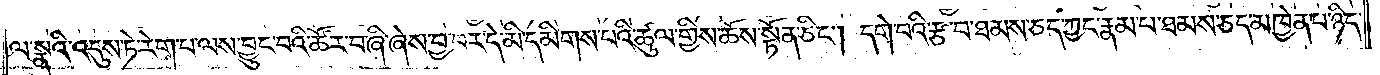ལ་སྣའི་འདུས་ཏེ་རེག་པ་ལས་བྱུང་བའི་ཚོར་བ་ཞི་ཞེས་བྱ་བར་དེ་མི་དམིགས་པའི་ཚུལ་གྱིས་ཆོས་སྟོན་ཅིང༌། དགེ་བའི་རྩ་བ་ཐམས་ཅད་ཀྱང་རྣམ་པ་ཐམས་ཅད་མཁྱེན་པ་ཉིད་
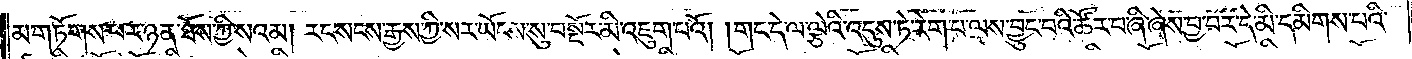མ་གཏོགས་པར་ཉན་ཐོས་ཀྱི་སའམ། རང་སངས་རྒྱས་ཀྱི་སར་ཡོངས་སུ་བསྔོར་མི་འཇུག་པའོ། །གང་དེ་ལ་ལྕེའི་འདུས་ཏེ་རེག་པ་ལས་བྱུང་བའི་ཚོར་བ་ཞི་ཞེས་བྱ་བར་དེ་མི་དམིགས་པའི་
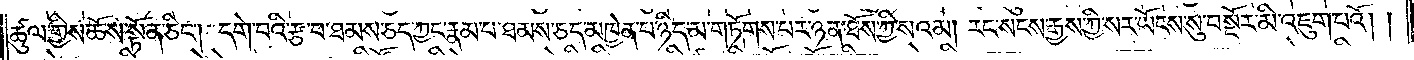ཚུལ་གྱིས་ཆོས་སྟོན་ཅིང༌། དགེ་བའི་རྩ་བ་ཐམས་ཅད་ཀྱང་རྣམ་པ་ཐམས་ཅད་མཁྱེན་པ་ཉིད་མ་གཏོགས་པར་ཉན་ཐོས་ཀྱི་སའམ། རང་སངས་རྒྱས་ཀྱི་སར་ཡོངས་སུ་བསྔོར་མི་འཇུག་པའོ། །
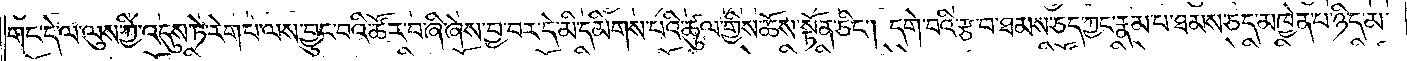གང་དེ་ལ་ལུས་ཀྱི་འདུས་ཏེ་རེག་པ་ལས་བྱུང་བའི་ཚོར་བ་ཞི་ཞེས་བྱ་བར་དེ་མི་དམིགས་པའི་ཚུལ་གྱིས་ཆོས་སྟོན་ཅིང༌། དགེ་བའི་རྩ་བ་ཐམས་ཅད་ཀྱང་རྣམ་པ་ཐམས་ཅད་མཁྱེན་པ་ཉིད་མ་
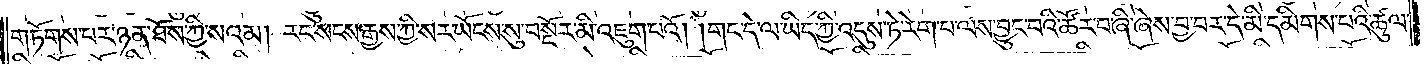གཏོགས་པར་ཉན་ཐོས་ཀྱི་སའམ། རང་སངས་རྒྱས་ཀྱི་སར་ཡོངས་སུ་བསྔོར་མི་འཇུག་པའོ། །གང་དེ་ལ་ཡིད་ཀྱི་འདུས་ཏེ་རེག་པ་ལས་བྱུང་བའི་ཚོར་བ་ཞི་ཞེས་བྱ་བར་དེ་མི་དམིགས་པའི་ཚུལ་
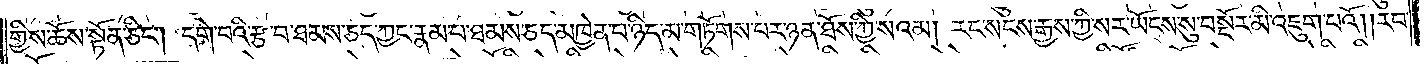གྱིས་ཆོས་སྟོན་ཅིང༌། དགེ་བའི་རྩ་བ་ཐམས་ཅད་ཀྱང་རྣམ་པ་ཐམས་ཅད་མཁྱེན་པ་ཉིད་མ་གཏོགས་པར་ཉན་ཐོས་ཀྱི་སའམ། རང་སངས་རྒྱས་ཀྱི་སར་ཡོངས་སུ་བསྔོར་མི་འཇུག་པའོ། །རབ་
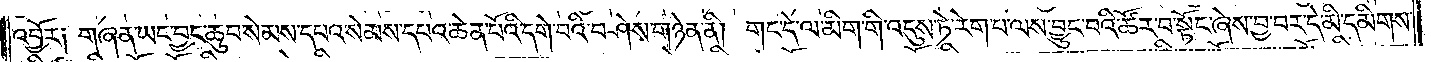འབྱོར༑ གཞན་ཡང་བྱང་ཆུབ་སེམས་དཔའ་སེམས་དཔའ་ཆེན་པོའི་དགེ་བའི་བཤེས་གཉེན་ནི། གང་དེ་ལ་མིག་གི་འདུས་ཏེ་རེག་པ་ལས་བྱུང་བའི་ཚོར་བ་སྟོང་ཞེས་བྱ་བར་དེ་མི་དམིགས་
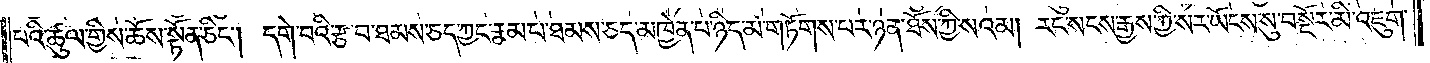པའི་ཚུལ་གྱིས་ཆོས་སྟོན་ཅིང༌། དགེ་བའི་རྩ་བ་ཐམས་ཅད་ཀྱང་རྣམ་པ་ཐམས་ཅད་མཁྱེན་པ་ཉིད་མ་གཏོགས་པར་ཉན་ཐོས་ཀྱིས་སའམ། རང་སངས་རྒྱས་ཀྱི་སར་ཡོངས་སུ་བསྔོར་མི་འཇུག་
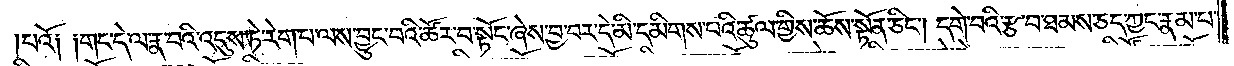པའོ༑ ༑གང་དེ་ལ་རྣ་བའི་འདུས་ཏེ་རེག་པ་ལས་བྱུང་བའི་ཚོར་བ་སྟོང་ཞེས་བྱ་བར་དེ་མི་དམིགས་པའི་ཚུལ་གྱིས་ཆོས་སྟོན་ཅིང༌། དགེ་བའི་རྩ་བ་ཐམས་ཅད་ཀྱང་རྣམ་པ་
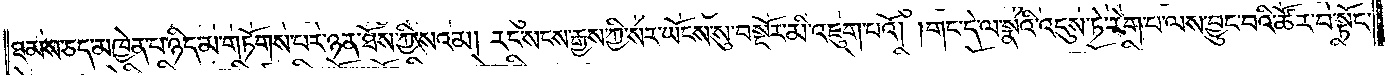ཐམས་ཅད་མཁྱེན་པ་ཉིད་མ་གཏོགས་པར་ཉན་ཐོས་ཀྱི་སའམ། རང་སངས་རྒྱས་ཀྱི་སར་ཡོངས་སུ་བསྔོར་མི་འཇུག་པའོ། །གང་དེ་ལ་སྣའི་འདུས་ཏེ་རེག་པའི་ལས་བྱུང་བའི་ཚོར་བ་སྟོང་
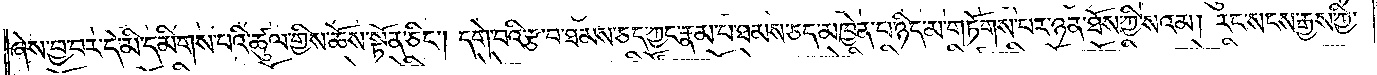ཞེས་བྱ་བར་དེ་མི་དམིགས་པའི་ཚུལ་གྱིས་ཆོས་སྟོན་ཅིང༌། དགེ་བའི་རྩ་བ་ཐམས་ཅད་ཀྱང་རྣམ་པ་ཐམས་ཅད་མཁྱེན་པ་ཉིད་མ་གཏོགས་པར་ཉན་ཐོས་ཀྱི་སའམ། རང་སངས་རྒྱས་ཀྱི་
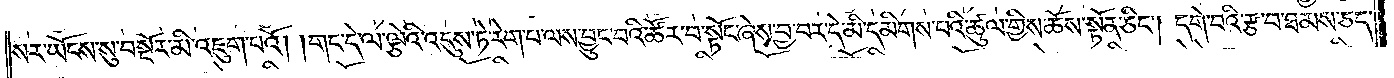སར་ཡོངས་སུ་བསྔོར་མི་འཇུག་པའོ། །གང་དེ་ལ་ལྕེའི་འདུས་ཏེ་རེག་པ་ལས་བྱུང་བའི་ཚོར་བ་སྟོང་ཞེས་བྱ་བར་དེ་མི་དམིགས་པའི་ཚུལ་གྱིས་ཆོས་སྟོན་ཅིང༌། དགེ་བའི་རྩ་བ་ཐམས་ཅད་
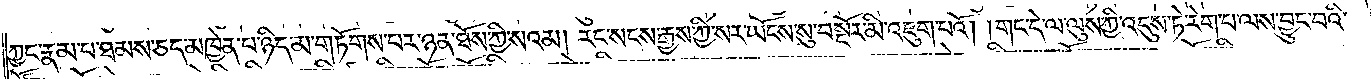ཀྱང་རྣམ་པ་ཐམས་ཅད་མཁྱེན་པ་ཉིད་མ་གཏོགས་པར་ཉན་ཐོས་ཀྱི་སའམ། རང་སངས་རྒྱས་ཀྱི་སར་ཡོངས་སུ་བསྔོར་མི་འཇུག་པའོ། །གང་དེ་ལ་ལུས་ཀྱི་འདུས་ཏེ་རེག་པ་ལས་བྱུང་བའི་
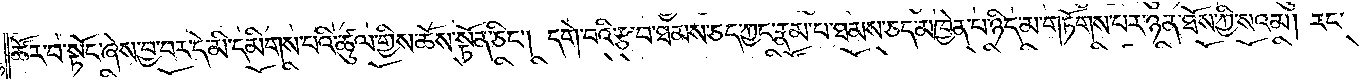ཚོར་བ་སྟོང་ཞེས་བྱ་བར་དེ་མི་དམིགས་པའི་ཚུལ་གྱིས་ཆོས་སྟོན་ཅིང༌། དགེ་བའི་རྩ་བ་ཐམས་ཅད་ཀྱང་རྣམ་པ་ཐམས་ཅད་མཁྱེན་པ་ཉིད་མ་གཏོགས་པར་ཉན་ཐོས་ཀྱི་སའམ། རང་
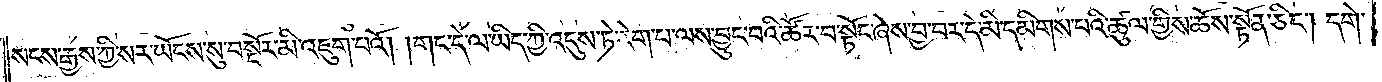སངས་རྒྱས་ཀྱི་སར་ཡོངས་སུ་བསྔོར་མི་འཇུག་པའོ། །གང་དེ་ལ་ཡིད་ཀྱི་འདུས་ཏེ་རེག་པ་ལས་བྱུང་བའི་ཚོར་བ་སྟོང་ཞེས་བྱ་བར་དེ་མི་དམིགས་པའི་ཚུལ་གྱིས་ཆོས་སྟོན་ཅིང༌། དགེ་
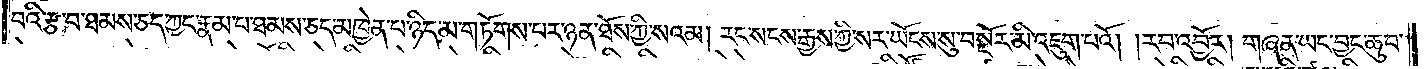བའི་རྩ་བ་ཐམས་ཅད་ཀྱང་རྣམ་པ་ཐམས་ཅད་མཁྱེན་པ་ཉིད་མ་གཏོགས་པར་ཉན་ཐོས་ཀྱི་སའམ། རང་སངས་རྒྱས་ཀྱི་སར་ཡོངས་སུ་བསྔོར་མི་འཇུག་པའོ། །རབ་འབྱོར། གཞན་ཡང་བྱང་ཆུབ་
